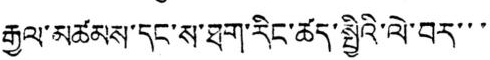རྒྱལ་མཚམས་དང་ས་ཐག་རིང་ཚད་སྤྱིའི་ལེ་བར་་་
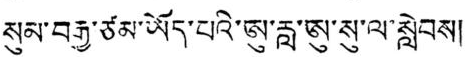སུམ་བརྒྱ་ཙམ་ཡོད་པའི་ཨུ་རླ་ཨུ་སུ་ལ་སླེབས།
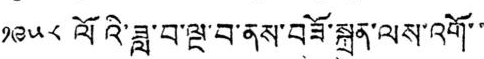༡༩༥༨ ལོའི་ཟླ་བ་ལྔ་བ་ནས་བཟོ་སྐྲུན་ལས་འགོ་་
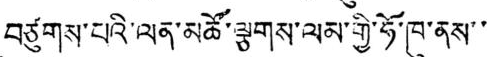བཙུགས་པའི་ལན་མཚོ་ལྕགས་ལམ་གྱི་ཧོ་ཁུ་ནས་་
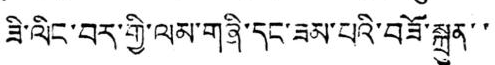ཟི་ལིང་བར་གྱི་ལམ་གཞི་དང་ཟམ་པའི་བཟོ་སྐྲུན་་
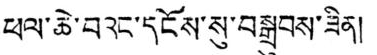ཕལ་ཆེ་བའང་དངོས་སུ་བསྒྲུབས་ཟིན།
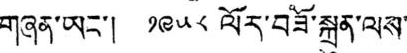གཞན་ཡང་། ༡༩༥༨ ལོར་བཟོ་སྐྲུན་ལས་
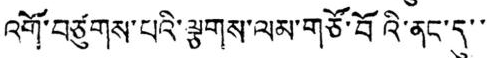འགོ་བཙུགས་པའི་ལྕགས་ལམ་གཙོ་བོའི་ནང་དུ་་
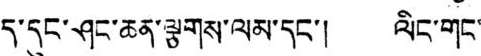ད་དུང་ཤང་ཆན་ལྕགས་ལམ་དང་། ལིང་གང་
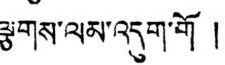ལྕགས་ལམ་འདུག་གོ །
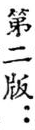第二版：
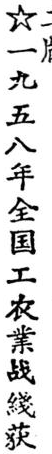☆一九五八年全国工农業战綫获
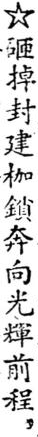☆砸掉封建枷鎖奔向光輝前程，
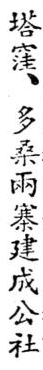塔窪、多桑兩寨建成公社
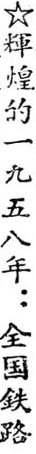☆輝煌的一九五八年：全国鉄路
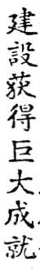建設获得巨大成就
